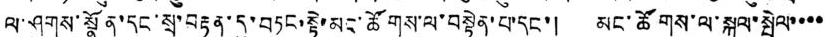ལ་ཤུགས་སྣོན་དང་སྲ་བརྟན་དུ་བཏང་སྟེ་མང་ཚོགས་ལ་བསྟེན་པ་དང་། མང་ཚོགས་ལ་སྐུལ་སྤེལ་་་་
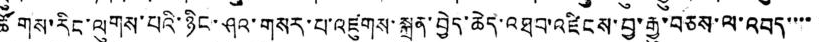ཚོགས་རིང་ལུགས་པའི་ཉིང་ཤའ་གསར་པ་འཛུགས་སྐྲུན་བྱེད་ཆེད་འཐབ་འཛིངས་བྱ་རྒྱུ་བཅས་ལ་འབད་་་་
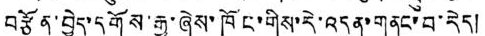བརྩོན་བྱེད་དགོས་རྒྱུ་ཞེས་ཁོང་གིས་རེ་འདུན་གནང་བ་རེད།
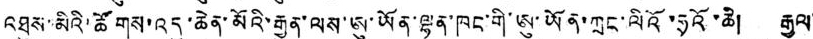འཐུས་མིའི་ཚོགས་འདུ་ཆེན་མོའི་རྒྱུན་ལས་ཨུ་ཡོན་ལྷན་ཁང་གི་ཨུ་ཡོན་ཀྲང་ལིའོ་ཧྲོའ་ཆི། རྒྱལ་
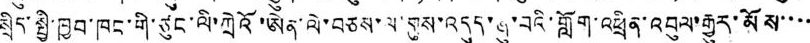སྲིད་སྤྱི་ཁྱབ་ཁང་གི་ཙུང་ལི་ཀྲེའོ་ཨེན་ལེ་བཅས་ལ་གུས་འདུད་ཞུ་བའི་གློག་འཕྲིན་འབུལ་རྒྱུར་མོས་་་་
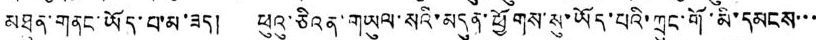མཐུན་གནང་ཡོད་པ་མ་ཟད། ཕུའུ་ཅིའན་གཡུལ་སའི་མདུན་ཕྱོགས་སུ་ཡོད་པའི་ཀྲུང་གོ་མི་དམངས་་་
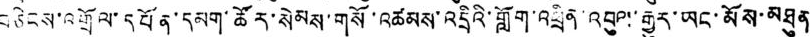བཅིངས་འགྲོལ་དཔོན་དམག་ཚོར་སེམས་གསོ་འཚམས་འདྲིའི་གློག་འཕྲིན་འབུལ་རྒྱུར་ཡང་མོས་མཐུན
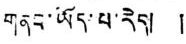གནང་ཡོད་པ་རེད། །
